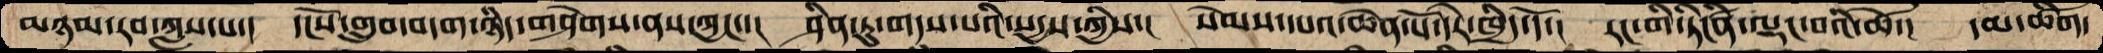མཉམ་རབ་ཀླས་པ་།  དངོས་གྲུབ་བདག་ཉིད་གཤེགས་ནས་ཀྱང་་།  ཤིན་ཏུ་གདས་པའི་སདྱས་ཀྱིས་།  སེམས་དཔའ་ཆེན་པོ་དེར་ཁྲིད་དོ་།  རང་གི་ཏིངེཛིན་ལྡང་བའི་ཚེ་།  དམ་ཚིག་
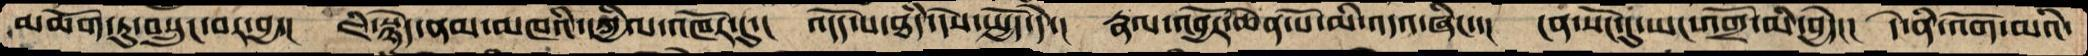མཆོག་ཏུ་བསྲུང་བར་བྱ་།  ཇི་སྙེད་ནམ་མཁའི་དཀྱིལ་འཁོར་དུ་།  འདོད་པ་ཐདཾ་དེས་སྤྱོད་དེ་།  རྣལ་འབྱོར་ཆེན་པོ་མི་འདའ་ཞིང་་།  ངན་སོང་དུ་ཡང་འགྲོ་མི་བྱེད་།  དེ་ནི་འོག་མའི་
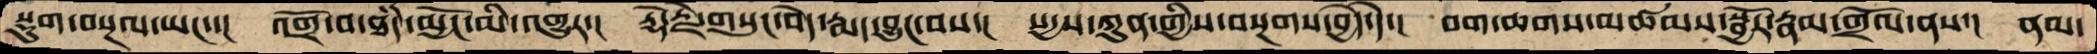སྡུག་བསྔལ་ཡང་་།  འགྲོ་བ་ཐདཾ་མྱོང་མི་འགྱུར་།  རྡོ་རྗེ་གསུང་བདེ་རྨད་བྱུང་བས་།  སདྱས་ཀུན་གྱིས་བསྔགས་བྱེད་དེ་།  བག་ཆགས་མཚམས་སྦྱོར་རྣམ་གྲོལ་ནས་།  ནམ་
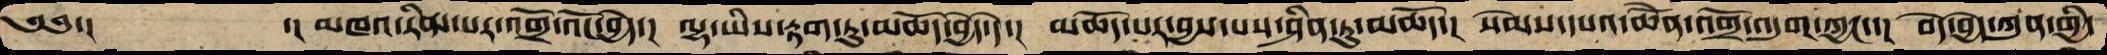༄༅་།     ་། མཁའ་རིམ་པར་འགྲོ་འོང་བྱེད་།  ལྷ་ཡིས་རྟག་ཏུ་མཆོད་བྱེད་དེ་།  མཆོད་པར་བྱས་པ་ཤིན་ཏུ་མཆོད་།  སེམས་དཔའ་ཆེོན་འགྲོ་འདུག་ཀྱང་་།  བདེ་བྱེད་ཀུན་གྱི་
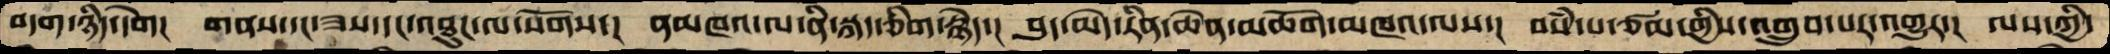བདག་ཉིད་དགེ།  གནས་དང་ཟས་དང་འཐུང་ལ་སོགས་།  ནམཁའ་ལ་ནི་སྐད་ཅིག་རྙེད་།  བུད་མེད་རིན་ཆེན་མཆོག་མཁའ་ལས་།  བསཾ་པ་ཙམ་གྱིས་འགྲུབ་པར་འགྱུར་།  ལས་ཀྱི་
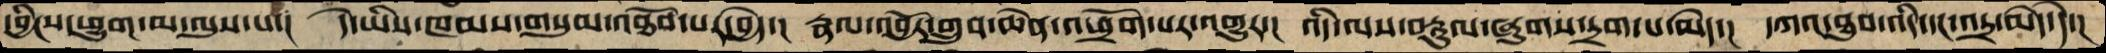དབྱིངས་ཕྱུག་མ་ལུས་པ་།  དེ་ཡིས་ཁམས་གསུམ་འཐོབ་པར་བྱེད་།  རྣལ་འབྱོར་གྲུབ་ཆེན་འཕྲོག་པར་འགྱུར་།  འདི་ལས་བརྟུལ་ཞུགས་དྲག་པ་མེད་།  དཀའ་ཐུབ་འདི་དང་འདྲ་མེད་དེ་།
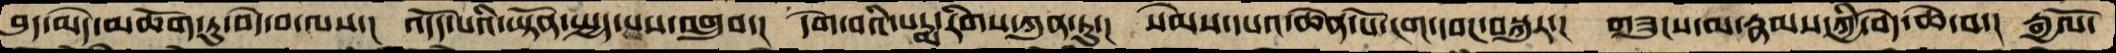བུད་མེད་མཆོག་ཏུ་བདེ་བ་ལས་།  འདོད་པའི་ཡྟོན་སྤྱད་པས་འགྲུབ་།  དགེ་བའི་པདྨ་རིགས་ཀུན་ཏུ་།  སེམས་དཔའ་ཆེན་པོ་ངག་དབང་བསྐུར་།  གཟུངས་མ་རྣམས་ཀྱི་བདེ་ཆེ་བ་།  རྒྱལོ་
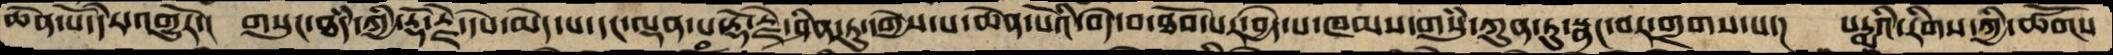ཆེན་པོ་དེར་འགྱུརོ་།  གསུང་ཐདཾ་ཀྱི་རྡོ་རྗེ་དཔེ་མེད་པ་དང་ལྡན་པ་རྡོ་རྗེ་ཤིན་ཏུ་དགྱེས་པ་ཆེན་པོའི་བདེ་བ་ཐོབ་པར་བྱེད་པ་ཁམས་གསུཾ་ཀུན་ཏུ་སྣང་བར་གྲགས་པ་།  པདྨའི་རིགས་ཀྱི་ཚོགས་
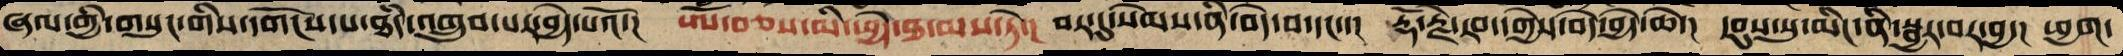ཞལ་གྱི་གསུང་གིས་དགོངས་པ་ཐདཾ་འགྲུབ་པར་བྱེད་པའོ་།  ཨོཾ་བཅས་མི་ཕྱེད་ཐ་མས་ཏེ་།  བར་དུ་སེམས་ནི་བདེ་བ་དང་་།  རྡོ་རྗེ་རབ་དགྱེས་བདེ་བྱེད་ཆེ་།  དབུས་སུ་མིང་ནི་སྦྱར་བར་བྱ་།  ཕྱག་
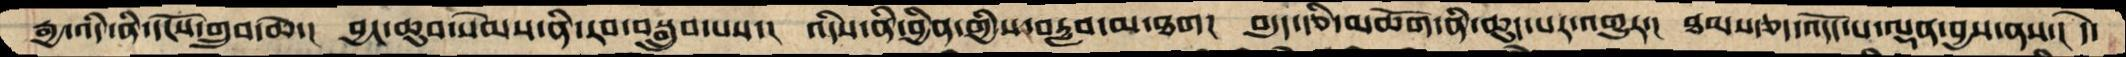རྒྱ་འདི་ནི་དངོས་གྲུབ་ཆེ་།  བྱང་ཆུབ་སེམས་ནི་རབ་བསྒྲུབ་པས་།  འདིས་ནི་བྱིན་གྱིས་བརླབ་མ་ཐག།  བདུད་རྩི་མཆོག་ནི་ཆུད་པར་འགྱུར་།  ཐམས་ཅད་འདོད་པ་ལྡན་བྱས་ནས་།  དེ་
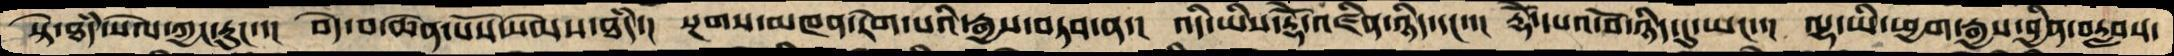སྟེ་ཐདཾ་སེལ་ཀྱང་རུང་་།  བདེ་བ་ཆེན་པོས་སེམས་ཐདཾ་།  སྔགས་མཁན་རེག་པའི་རྒྱས་བཏབ་ན་།  འདི་ཡིས་རྡོེ་འཛིན་ཉིད་དང་་།  རྡོེ་དཔའ་བོ་ཉིད་དུ་ཡང་་།  ལྷ་ཡི་ཕྱག་རྒྱས་བྱིན་བརླབས་
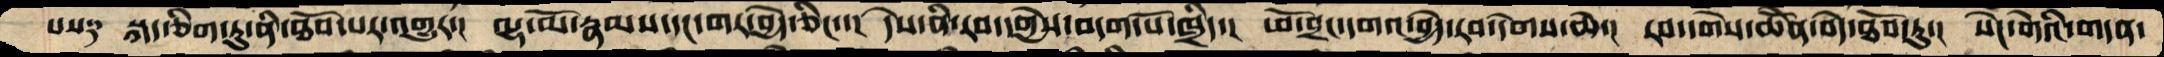པས༑  སྐད་ཅིག་ཏུ་ནི་ཐོབ་པར་འགྱུར་།  ལྷ་མོ་རྣམས་དང་གར་བྱེད་ཅིང་་།  དེས་ནི་རབ་དགྱེས་བདག་པོ་ཁྲིད་།  ཕོ་བྲང་དགའ་བྱེད་རབ་དགེས་ཆེ་།  རབ་དགེས་ཆེནོ་བདེ་ཐོབ་ཏུ་།  སེང་གེའི་གདན་
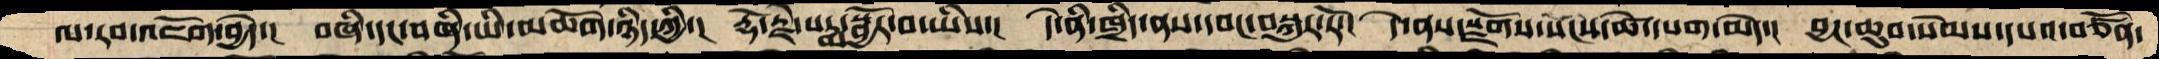ལ་རབ་འཇོག་བྱེད་།  བཞི་དང་བཞི་ཡི་མཆོག་ཉིད་ཀྱི་།  རྡོ་རྗེ་པདྨ་སྦྱོར་བ་ཡིས་།  དེ་ནི་ཁྲིད་ནས་དབང་བསྐུར་རོ་།  དེ་ནས་སྫོགས་སངས་ཚེ་དཔག་མེད་།  བྱང་ཆུབ་སེམས་དཔའ་བཙོན་
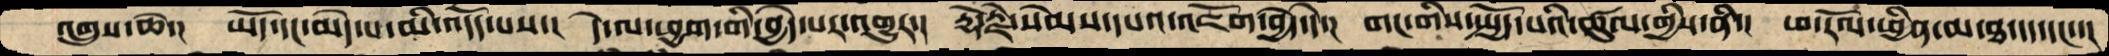འགྲུས་ཆེ་།  ཡོད་དང་མེད་པ་མི་འདོད་པས་།  དེ་ལ་ཕྱག་གི་བྱེད་པར་འགྱུར་།  རྡོ་རྗེ་སེམས་དཔའ་འཇོག་བྱེད་དེ་།  གང་གིས་སྤྱོད་པའི་ཚུལ་གྱིས་ནི་། ཕ་རོལ་ཕྱིན་མ་ཐ་དད་དང་་།
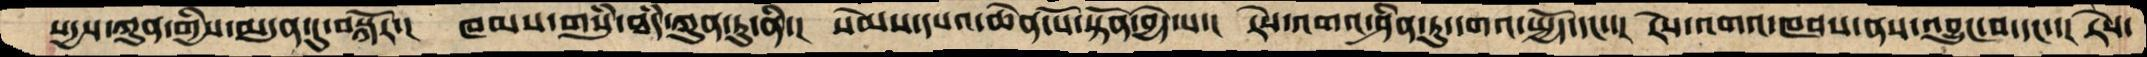སདྱས་ཀུན་གྱིས་མདུན་དུ་བསྐོར་།  ཁམས་གསུཾ་ཐཾད་ཀུན་ཏུ་ནི་།  སེམས་དཔའ་ཆེན་པོ་སྟོན་བྱེད་པ་།  རེས་འགའ་ཤིན་ཏུ་དགའ་སྤྱོད་དང་་།  རེས་འགའ་ཁབས་ནས་འབྱུང་བ་དང་་།  རེས་
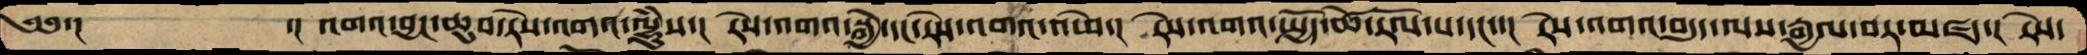༄༅་།       ་།འགའ་བྱང་ཆུབ་རེས་འགའ་ལྷུཾས་།  རེས་འགའ་སྐྱེ་དང་རེས་འགའ་འཕེ་།  རེས་འགའ་སྤྱོད་ཚེ་རོལ་པ་དང་་།  རེས་འགའ་བདུད་ལས་རྒྱལ་བར་མཛད་།  རེས་
